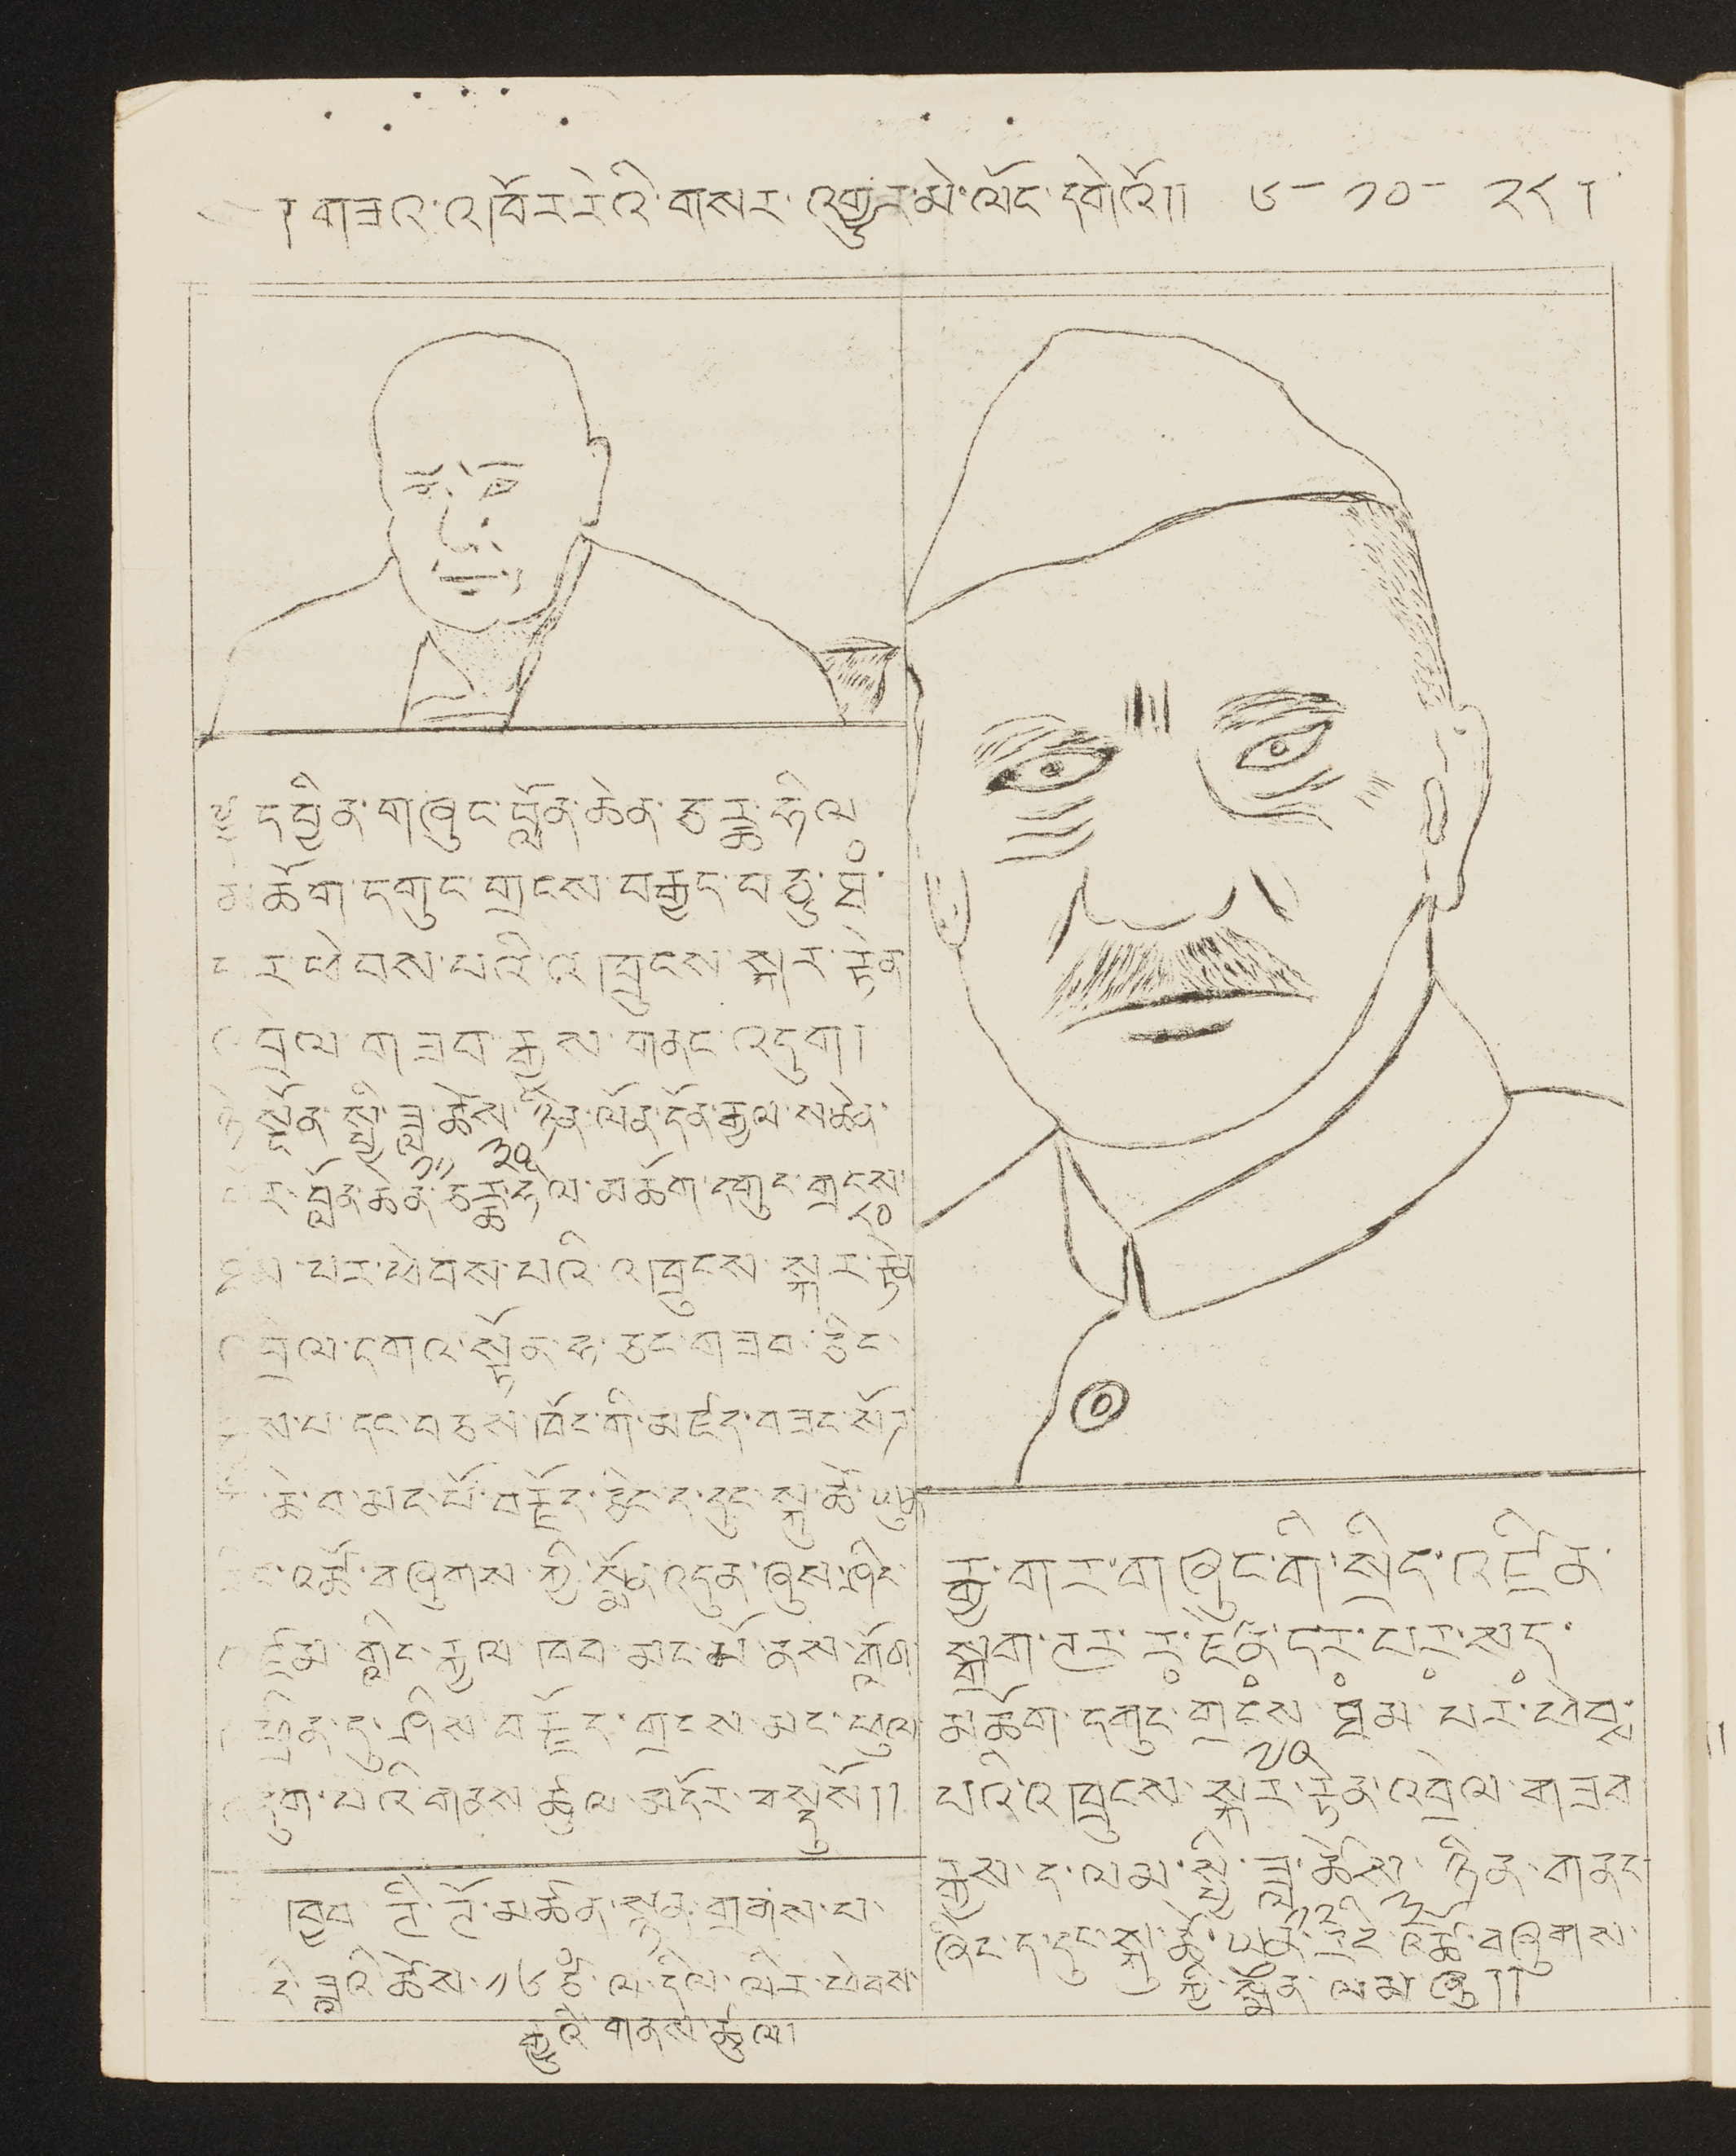༤ གཟའ་འཁོར་རེའི་གསར་འགྱུར་མེ་ལོང་དགེའོ།། ༦-༡༠-༢༨།
༈ དབྱིན་གཞུང་བློན་ཆེན་ཅརྖ་ཧིལ
མཆོག་དགུང་གྲངས་བརྒྱད་བཅུ་ཐཾ་
པར་ཕེབས་པའི འཁྲུངས་སྐར་རྟེན་
འབྲེལ་གཟབ་རྒྱས་གནང་འདུག།།
ཉེ་སྔོན་སྤྱི་ཟླ་
༡༡
ཚེས་
༣༠
ཉིན་ལོན་དོན་རྒྱལ་ས་ཆེན་
པོར་བློན་ཆེན་ཅརྖ་ཧིལ་མཆོག་དགུང་གྲངས་
༨༠
ཐཾས་པར་ཕེབས་པའི་འཁྲུངས་སྐར་རྟེན
འབྲེལ་དགའ་སྟོན་ཧ་ཅང་གཟབ་ཅིང་
ས་པ་དནག་བཅས་ཁོང་གི་མཛད་བཟང་སོཌ་
རྒྱ་ཆེ་བ་མང་པོ་བརྗོད་ཅིང་ད་དུང་སྐུ་ཚེ་ཡུན་
རིང་འཚོ་བཞུགས་ཀྱི་སྨོན་འདུན་ཞུས་ཤིང་
འཛམ་གླིང་རྒྱལ་ཁབ་མང་པོ་ནས་གློག་
འཕྲིན་དུ་ཤིས་བརྗོད་གྲངས་མང་ཕུལ་
འདུག་པའི་གནས་ཚུལ་མདོར་བསྡུསོ།།
ཁྱབ་ཊི་ཊོ་མཚན་སྙན་གྲགས་པ་
འདི་ཟླའི་ཚེས་༡༦ ཙཾ་ལ་དིལ་ལིར་ཕེབས་
རྒྱུའི་གནས་ཚུལ།
རྒྱ་གར་གཞུང་གི་སྲིད་འཛིན་
སྒྲག་ཊར་ར
ཾ
ཇན་
ཾ
དར་
ཾ
པར་ཾ
ཾ
སད་
ཾ
མཆོག་དགུང་གྲངས་
༧༠
ཐམ་པར་ཕེབྶ་
པའི་འཁྲུངས་སྐར་རྟེན་འབྲེལ་གཟབ
རྒྱས་ད་ལམ་སྤྱི་ཟླ་
༡༢
ཚེས་
༣
ཉིན་གནང་
ཞིང་ད་དུང་སྐུ་ཚེ་ཡུལ་རིང་འཚོ་བཞུགས་
ཀྱི་སྨོན་ལམ་ཞུ།།
